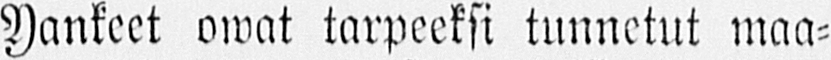Yankeet owat tarpeeksi tunnetut maa-
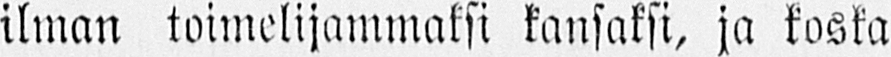ilman toimelijammaksi kansaksi, ja koska
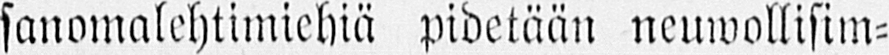sanomalehtimiehiä pidetään neuwollisim-
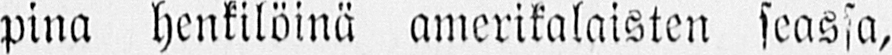pina henkilöinä amerikalaisten seassa,
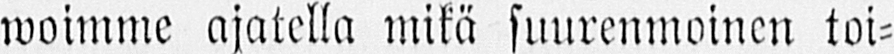woimme ajatella mikä suurenmoinen toi-
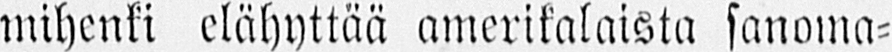mihenki elähyttää amerikalaista sanoma-
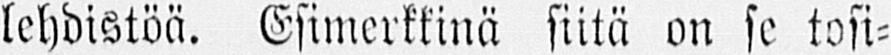lehdistöä. Esimerkkinä siitä on se tosi-
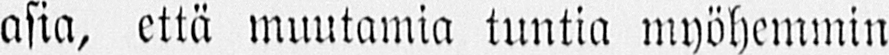asia, että muutamia tuntia myöhemmin
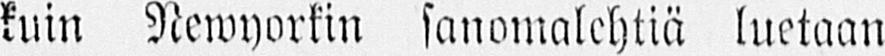kuin Newyorkin sanomalehtiä luetaan
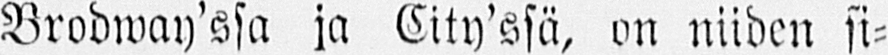Brodwayssa ja City'ssä, on niiden si-
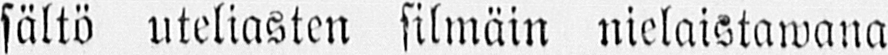sältö uteliasten silmäin nielaistawana
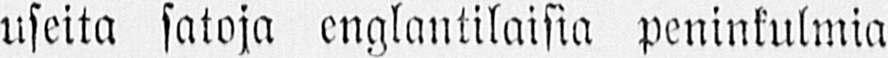useita satoja englantilaisia peninkulmia
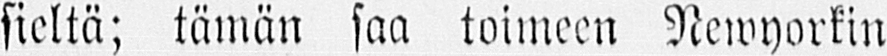sieltä; tämän saa toimeen Newyorkin
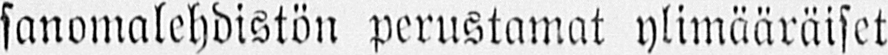sanomalehdistön perustamat ylimääräiset
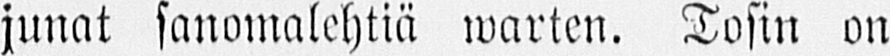junat sanomalehtiä warten. Tosin on
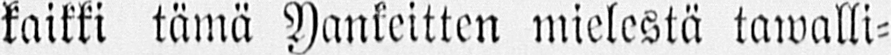kaikki tämä Yankeitten mielestä tawalli-
